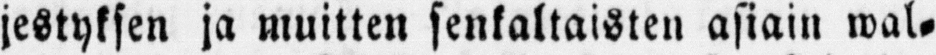jestyksen ja muitten senkaltaisten asiain wal-
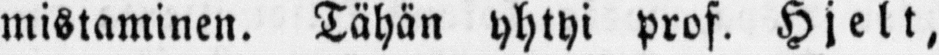mistaminen. Tähän yhtyi prof. Hjelt,
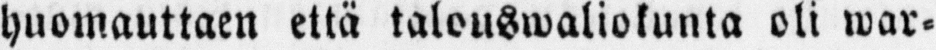huomauttaen että talouswaliokunta oli war-
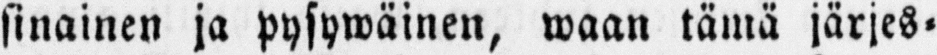sinainen ja pysywäinen, waan tämä järjes-
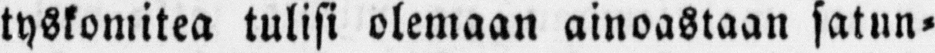tyskomitea tulisi olemaan ainoastaan satun-
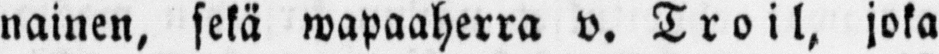nainen, sekä wapaaherra v. Troil, joka
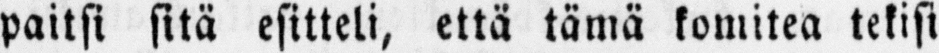paitsi sitä esitteli, että tämä komitea tekisi
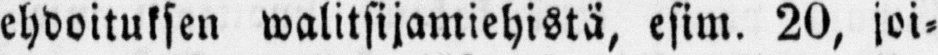ehdoituksen walitsijamiehistä, esim. 20, joi-
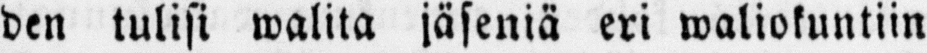den tulisi walita jäseniä eri waliokuntiin
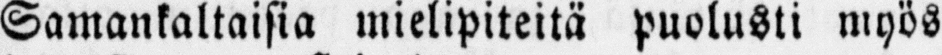Samankaltaisia mielipiteitä puolusti myös
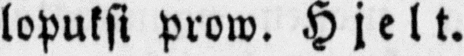lopuksi prow. Hjelt.
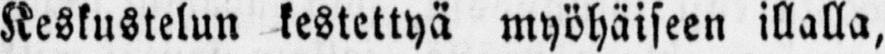Keskustelun kestettyä myöhäiseen illalla,
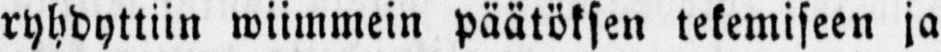ryhdyttiin wiimmein päätöksen tekemiseen ja
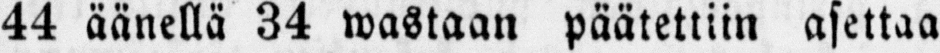44 äänellä 34 wastaan päätettiin asettaa
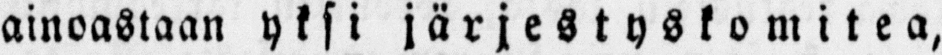ainoastaan yksi järjestyskomitea,
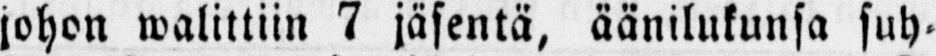johon walittiin 7 jäsentä, äänilukunsa suh-
